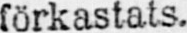förkastats.
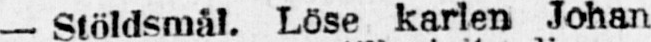— Stöldsmål. Löse karlen Johan
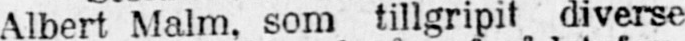Albert Malm, som tillgripit diverse
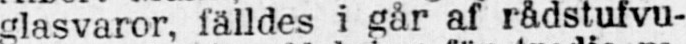glasvaror, fälldes i går af rådstufvu-
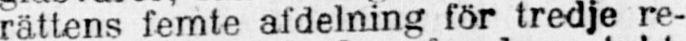rättens femte afdelning för tredje re-
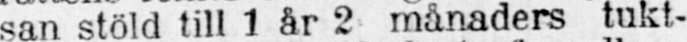san stöld till 1 år 2 månaders tukt-
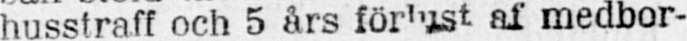husstraff och 5 års förlust af medbor-
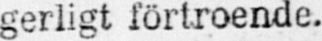gerligt förtroende.
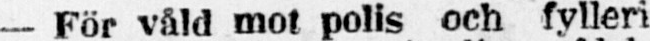— För våld mot polis och fylleri
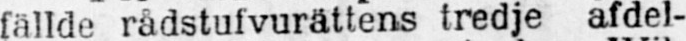fällde rådstufvurättens tredje afdel-
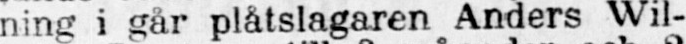ning i går plåtslagaren Anders Wil-
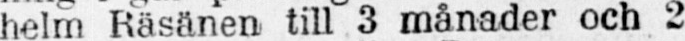helm Räsänen till 3 månader och 2
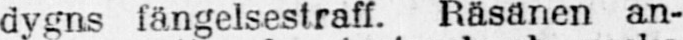dygns fängelsestraff. Räsanen an-
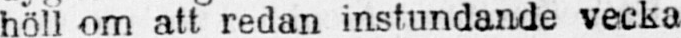höll om att redan instundande vecka
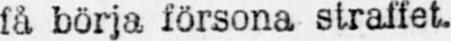få börja försona straffet.
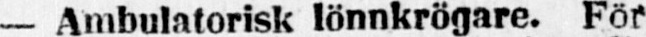— Ambulatorisk lönnkrögare. För
